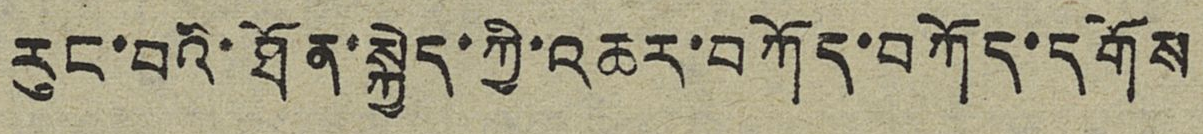རུང་བའི་ཐོན་སྐྱེད་ཀྱི་འཆར་བཀོད་བཀོད་དགོས
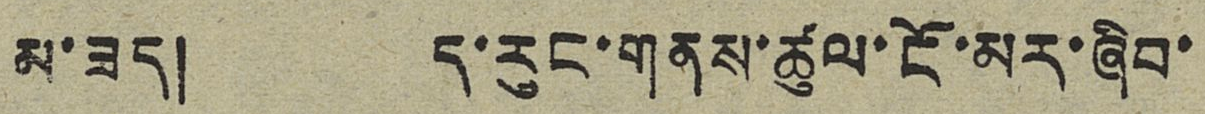མ་ཟད། ད་རུང་གནས་ཚུལ་ངོ་མར་ཞིབ་
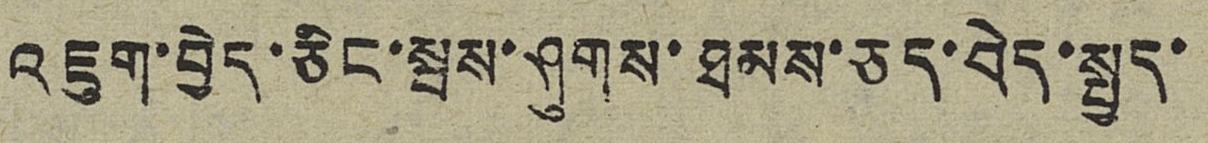འཇུག་བྱེད་ཅིང་སྦས་ཤུགས་ཐམས་ཅད་བེད་སྤྱད་
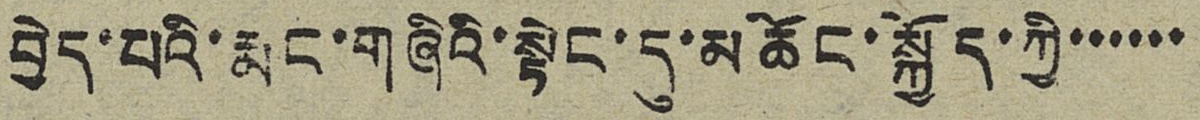བྱེད་པའི་རྨང་གཞིའི་སྟེང་དུ་མཆོང་སྐྱོད་ཀྱི་་་་་་
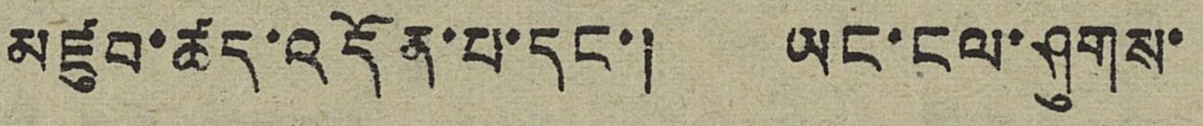མཛུབ་ཚད་འདོན་པ་དང་། ཡང་ངལ་ཤུགས་
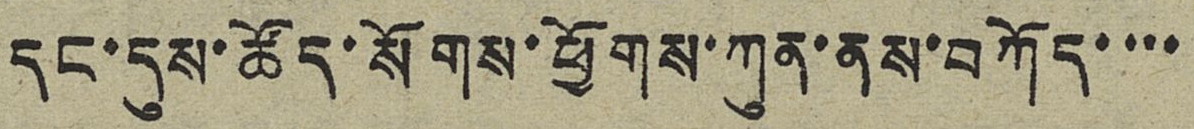དང་དུས་ཚོད་སོགས་ཕྱོགས་ཀུན་ནས་བཀོད་་་་
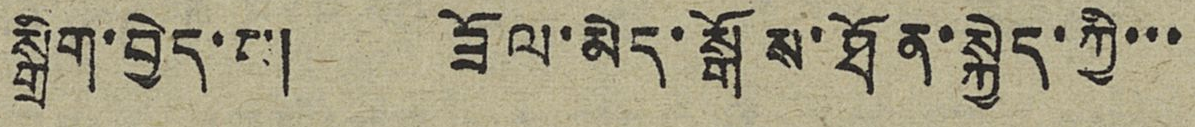སྒྲིག་བྱེད་པ། ཟོལ་མེད་སྒོས་ཐོན་སྐྱེད་ཀྱི་་་
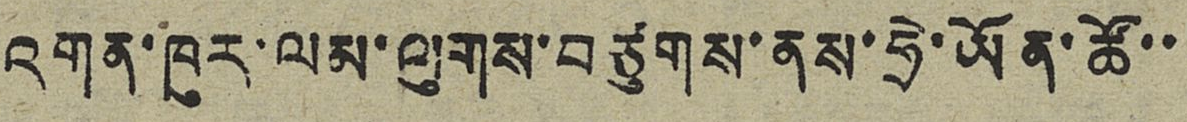འགན་ཁུར་ལམ་ལུགས་བཙུགས་ནས་ཧྲེ་ཡོན་ཚོ་་
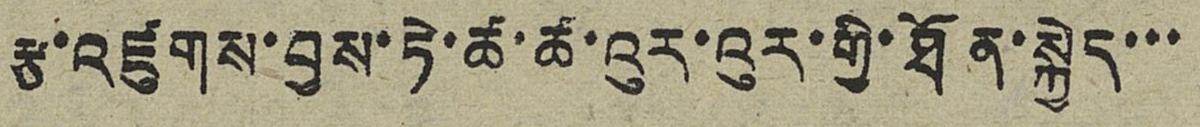རྩ་འཛུགས་བྱས་ཏེ་ཚ་ཚ་འུར་འུར་གྱི་ཐོན་སྐྱེད་་་
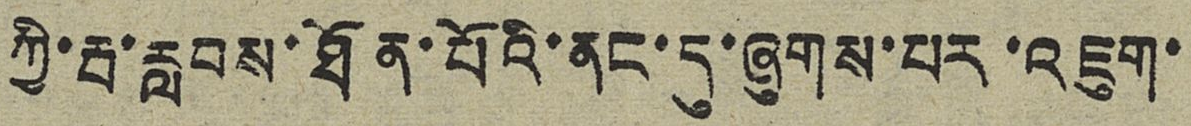ཀྱི་རྦ་རླབས་ཐོན་པོའི་ནང་དུ་ཞུགས་པར་འཇུག་
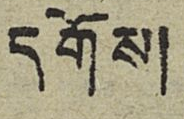དགོས།
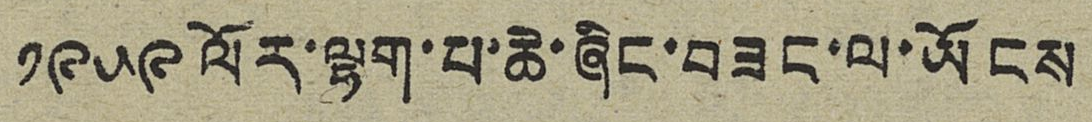༡༩༥༩ ལོར་ལྷག་པ་ཆེ་ཞིང་བཟང་ལ་ཡོངས
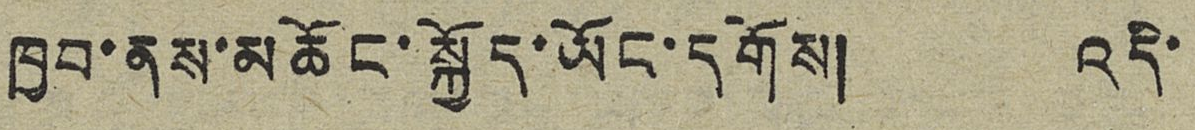ཁྱབ་ནས་མཆོང་སྐྱོད་ཡོང་དགོས། འདི་
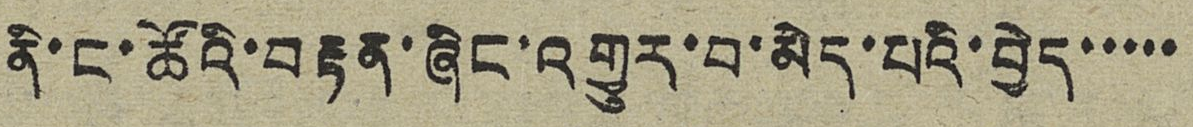ནི་ང་ཚོའི་བརྟན་ཞིང་འགྱུར་བ་མིད་པའི་བྱེད་་་་་
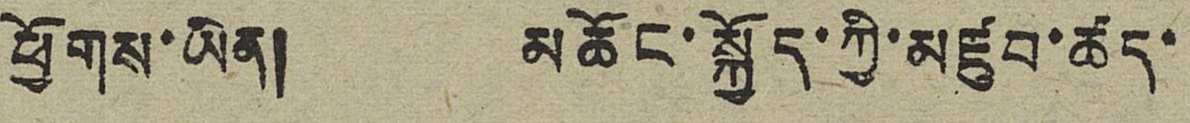ཕྱོགས་ཡིན། མཆོང་སྐྱོད་ཀྱི་མཛུབ་ཚད་
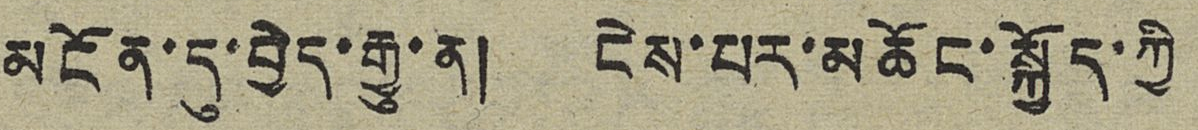མངོན་དུ་བྱེད་རྒྱུ་ན། ངེས་པར་མཆོང་སྐྱོད་ཀྱི
